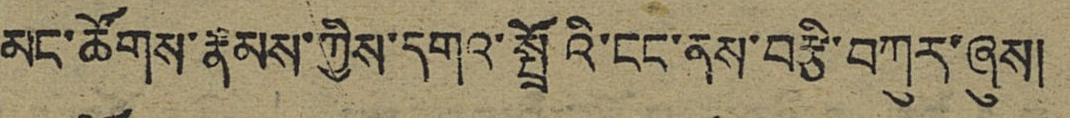མང་ཚོགས་རྣམས་ཀྱིས་དགའ་སྤྲོའི་ངང་ནས་བརྩི་བཀུར་ཞུས།
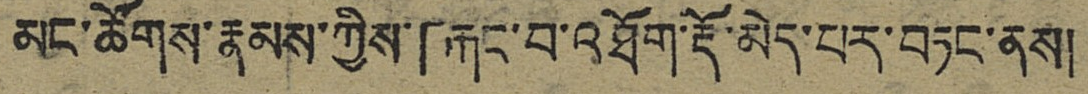མང་ཚོགས་རྣམས་ཀྱིས་「རྐང་བ་འཐོག་རྡོ་མེད་པར་བཏང་ནས།
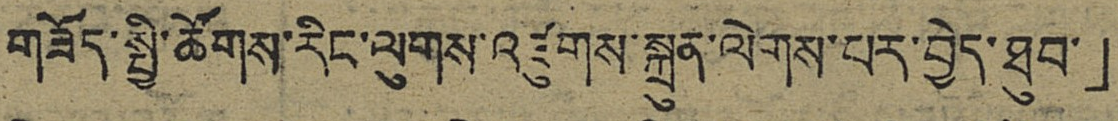གཟོད་སྤྱི་ཚོགས་རིང་ལུགས་འཛུགས་སྐྲུན་ལེགས་པར་བྱེད་ཐུབ་」
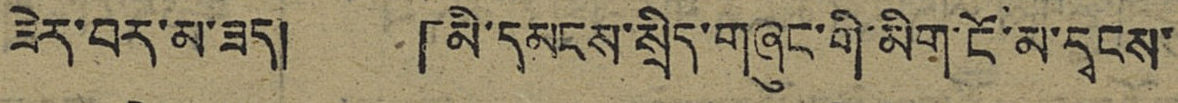ཟེར་བར་མ་ཟད། 「མི་དམངས་སྲིད་གཞུང་གི་མིག་ངོ་མ་དྭངས་
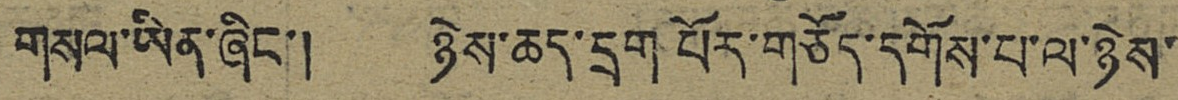གསལ་ཡིན་ཞིང་། ཉེས་ཆད་དྲག པོར་གཅོད་དགོས་པ་ལ་ཉེས་
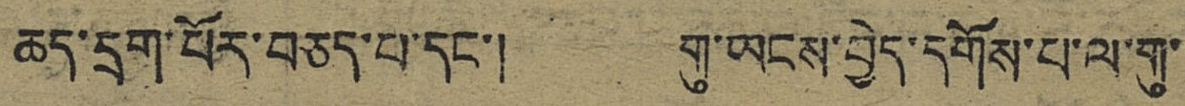ཆད་དྲག་པོར་བཅད་པ་དང་། གུ་ཡངས་བྱེད་དགོས་པ་ལ་གུ་
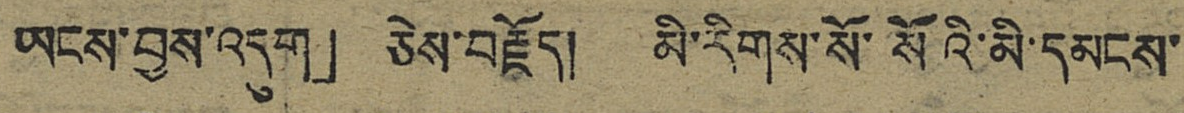ཡངས་བྱས་འདུག」 ཅེས་བརྗོད། མི་རིགས་སོ་སོའི་མི་དམངས་
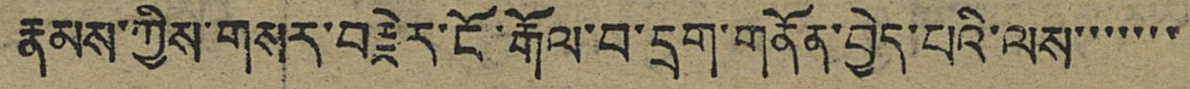རྣམས་ཀྱིས་གསར་བརྗེར་ངོ་རྒོལ་བ་དྲག་གནོན་བྱེད་པའི་ལས་་་་་་་
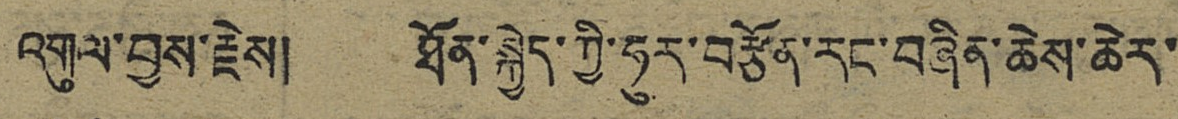འགུལ་བྱས་རྗེས། ཐོན་སྐྱེད་ཀྱི་ཧུར་བརྩོན་རང་བཞིན་ཆེས་ཆེར་
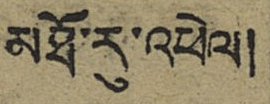མཐོ་རུ་འཕེལ།
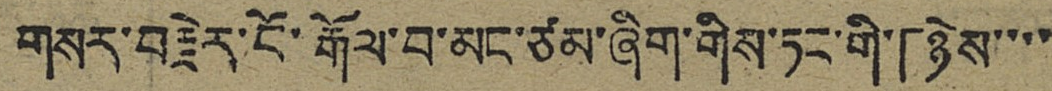གསར་བརྗེར་ངོ་རྒོལ་བ་མང་ཙམ་ཞིག་གིས་ཏང་གི་「ཉེས་་་་
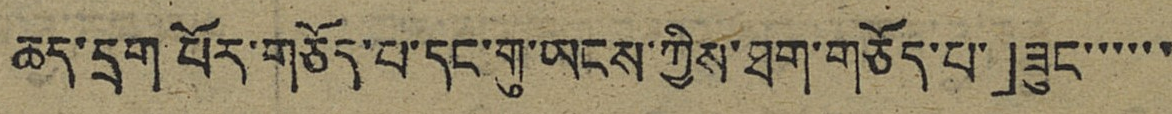ཆད་དྲག་པོར་གཅོད་པ་དང་གུ་ཡངས་ཀྱིས་ཐག་གཅོད་པ་」ཟུང་་་་་་
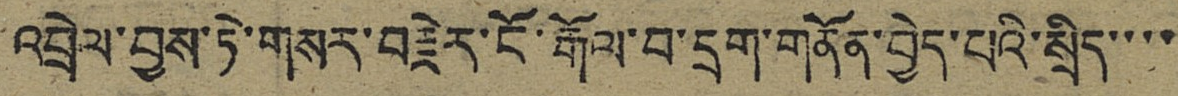འབྲེལ་བྱས་ཏེ་གསར་བརྗེར་ངོ་རྒོལ་བ་དྲག་གནོན་བྱེད་པའི་སྲིད་་་་
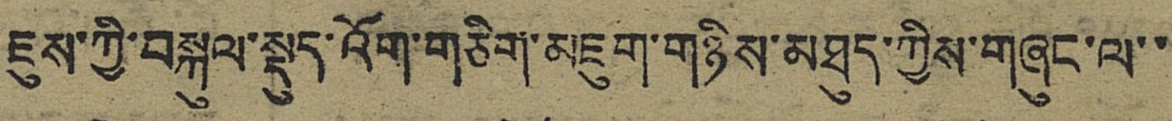ཇུས་ཀྱི་བསྐུལ་སྡུད་འོག་གཅིག་མཇུག་གཉིས་མཐུད་ཀྱིས་གཞུང་ལ་་
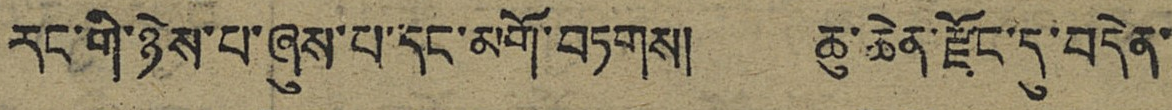རང་གི་ཉེས་པ་ཞུས་པ་དང་མགོ་བཏགས། ཆུ་ཆེན་རྫོང་དུ་བདེན་
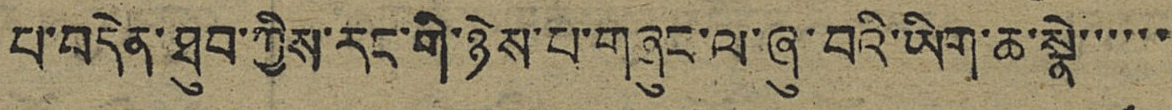པ་བདེན་ཐུབ་ཀྱིས་རང་གི་ཉེས་པ་གཞུང་ལ་ཞུ་བའི་ཡིག་ཆ་སྣེ་་་་་་
